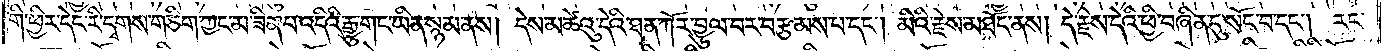གི་ཕྱིར་དེང་རི་དྭགས་གཅིག་ཀྱང་མ་ཟིན་པ་འདིའི་རྒྱུ་གང་ཡིན་སྙམ་ནས། དེས་མཚེའུ་དེའི་ཐན་ཀོར་བྱུལ་བར་བརྩམས་པ་དང༌། མིའི་རྗེས་མཐོང་ནས། དེ་རྗེས་དེའི་ཕྱི་བཞིན་དུ་སོང་བ་དང༌། རང་
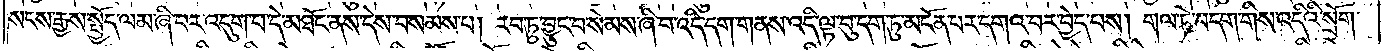སངས་རྒྱས་སྤྱོད་ལམ་ཞི་བར་འདུག་པ་དེ་མཐོང་ནས་དེས་བསམས་པ། རབ་ཏུ་བྱུང་བ་སེམས་ཞི་བ་འདི་དག་གནས་འདི་ལྟ་བུ་དག་ཏུ་མངོན་པར་དགའ་བར་བྱེད་པས། གལ་ཏེ་བདག་གིས་འདིའི་སྲོག་
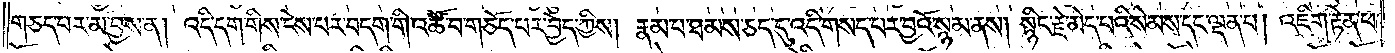གཅད་པར་མ་བྱས་ན། འདི་དག་གིས་ངེས་པར་བདག་གི་འཚོ་བ་གཅོད་པར་བྱེད་ཀྱིས། རྣམ་པ་ཐམས་ཅད་དུ་འདི་གསད་པར་བྱའོ་སྙམ་ནས། སྙིང་རྗེ་མེད་པའི་སེམས་དང་ལྡན་པ། འཇིག་རྟེན་ཕ་
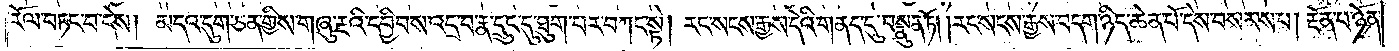རོལ་བཏང་བ་དེས། མདའ་དུག་ཅན་གྱིས་གཞུ་རྔའི་དབྱིབས་འདྲ་བ་རྣ་དྲུང་དུ་ཐུག་པར་བཀང་སྟེ། རང་སངས་རྒྱས་དེའི་གནད་དུ་བསྣུན་ཏོ། །རང་སངས་རྒྱས་བདག་ཉིད་ཆེན་པོ་དེས་བསམས་པ། རྔོན་པ་ཉོན་
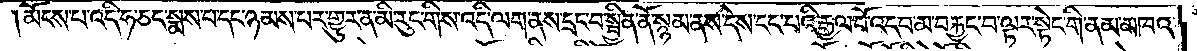མོངས་པ་འདི་ཧ་ཅང་སྨས་པ་དང་ཉམས་པར་གྱུར་ན་མི་རུང་གིས་འདི་ལག་ནས་དྲང་བ་སྦྱིན་ནོ་སྙམ་ནས་དེས་ངང་པའི་རྒྱལ་པོ་འདབ་མ་བརྐྱང་བ་ལྟར་སྟེང་གི་ནམ་མཁའ་
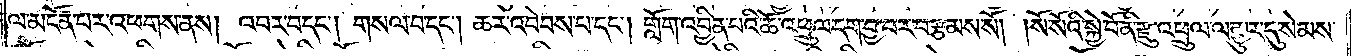ལ་མངོན་པར་འཕགས་ནས། འབར་བ་དང༌། གསལ་བ་དང༌། ཆར་འབེབས་པ་དང༌། གློག་འབྱིན་པའི་ཆོ་འཕྲུལ་དག་བྱ་བར་བརྩམས་སོ། །སོ་སོའི་སྐྱེ་བོ་ནི་རྫུ་འཕྲུལ་ལ་མྱུར་དུ་སེམས་
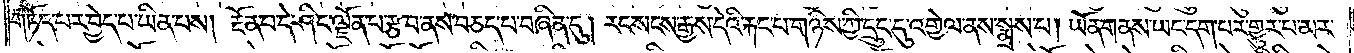གཏོད་པར་བྱེད་པ་ཡིན་པས། རྔོན་པ་དེ་ཤིང་ལྗོན་པ་རྩ་བ་ནས་བཅད་པ་བཞིན་དུ། རང་སངས་རྒྱས་དེའི་རྐང་པ་གཉིས་ཀྱི་དྲུང་དུ་འགྱེལ་ནས་སྨྲས་པ། ཡོན་གནས་ཡང་དག་པར་གྱུར་པ་མར་
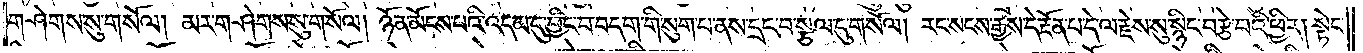གཤེགས་སུ་གསོལ། མར་གཤེགས་སུ་གསོལ། ཉོན་མོངས་པའི་འདམ་དུ་བྱིང་བ་བདག་གི་སུག་པ་ནས་དྲང་བ་སྩལ་དུ་གསོལ། རང་སངས་རྒྱས་དེ་རྔོན་པ་དེ་ལ་རྗེས་སུ་སྙིང་བརྩེ་བའི་ཕྱིར། སྟེང་
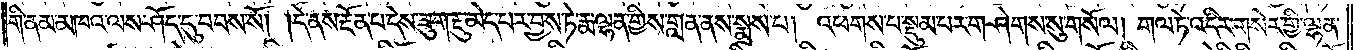གི་ནམ་མཁའ་ལས་ཤོད་དུ་བབས་སོ། །དེ་ནས་རྔོན་པ་དེས་ཟུག་རྔུ་མེད་པར་བྱས་ཏེ་རྨ་ལྷན་གྱི་གླན་ནས་སྨྲས་པ། འཕགས་པ་སྡུམ་པར་གཤེགས་སུ་གསོལ། གལ་ཏེ་འདིར་གསེར་གྱི་ལྷན་
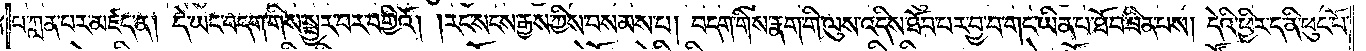པ་ཀླན་པར་མཛད་ན། དེ་ཡང་བདག་གིས་སྦྱར་བར་བགྱིའོ། །རང་སངས་རྒྱས་ཀྱིས་བསམས་པ། བདག་གིས་རྣག་གི་ལུས་འདིས་ཐོབ་པར་བྱ་བ་གང་ཡིན་པ་ཐོབ་ཟིན་པས། དེའི་ཕྱིར་ད་ནི་ཕུང་པོ་
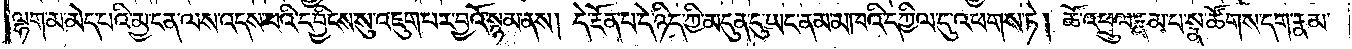ལྷག་མ་མེད་པའི་མྱ་ངན་ལས་འདས་པའི་དབྱིངས་སུ་འཇུག་པར་བྱའོ་སྙམ་ནས། དེ་རྔོན་པ་དེ་ཉིད་ཀྱི་མདུན་དུ་ཡང་ནམ་མཁའི་དཀྱིལ་དུ་འཕགས་ཏེ། ཆོ་འཕྲུལ་རྣམ་པ་སྣ་ཚོགས་དག་རྣམ་
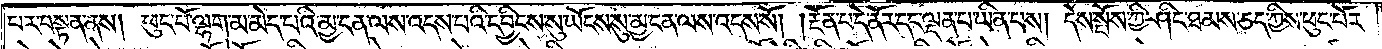པར་བསྟན་ནས། ཕུང་པོ་ལྷག་མ་མེད་པའི་མྱ་ངན་ལས་འདས་པའི་དབྱིངས་སུ་ཡོངས་སུ་མྱ་ངན་ལས་འདས་སོ། །རྔོན་པ་དེ་ནོར་དང་ལྡན་པ་ཡིན་པས། དེས་སྤོས་ཀྱི་ཤིང་ཐམས་ཅད་ཀྱིས་ཕུང་པོར་
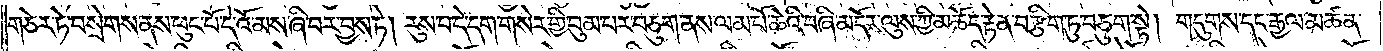གཅེར་ཏེ་བསྲེགས་ནས་ཕུང་པོ་དེ་འོ་མས་ཞི་བར་བྱས་ཏེ། རུས་པ་དེ་དག་གསེར་གྱི་བུམ་པར་བཅུག་ནས་ལམ་པོ་ཆེའི་བཞི་མདོར་ལུས་ཀྱི་མཆོད་རྟེན་བརྩིག་ཏུ་བཅུག་སྟེ། གདུགས་དང་རྒྱལ་མཚན་
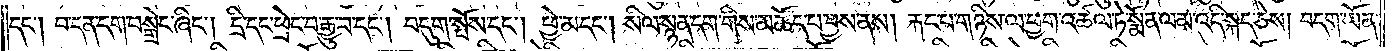དང༌། བ་དན་དག་བསྒྲེང་ཞིང༌། དྲི་དང་ཕྲེང་བ་རྒྱུ་བ་དང༌། བདུག་སྤོས་དང༌། ཕྱེ་མ་དང༌། སིལ་སྙན་དག་གིས་མཆོད་པ་བྱས་ནས། རྐང་པ་གཉིས་ལ་ཕྱག་འཚལ་ཏེ་སྨོན་ལམ་འདི་སྐད་ཅེས། བདག་ཡོན་
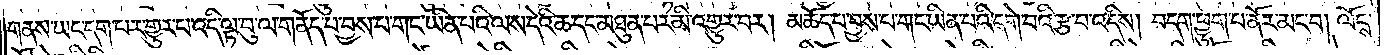གནས་ཡང་དག་པར་གྱུར་པ་འདི་ལྟ་བུ་ལ་གནོད་པ་བྱས་པ་གང་ཡིན་པའི་ལས་དེའི་ཆ་དང་མཐུན་པར་མི་འགྱུར་བར། མཆོད་པ་བྱས་པ་གང་ཡིན་པའི་དགེ་བའི་རྩ་བ་འདིས། བདག་ཕྱུག་པ་ནོར་མང་བ། ལོངས་
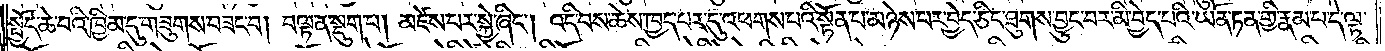སྤྱོད་ཆེ་བའི་ཁྱིམ་དུ་གཟུགས་བཟང་བ། བལྟ་ན་སྡུག་པ། མཛེས་པར་སྐྱེ་ཞིང༌། འདི་བས་ཆེས་ཁྱད་པར་དུ་འཕགས་པའི་སྟོན་པ་མཉེས་པར་བྱེད་ཅིང་ཐུགས་བྱུང་བར་མི་བྱེད་པའི་ཡོན་ཏན་གྱི་རྣམ་པ་དེ་ལྟ་
